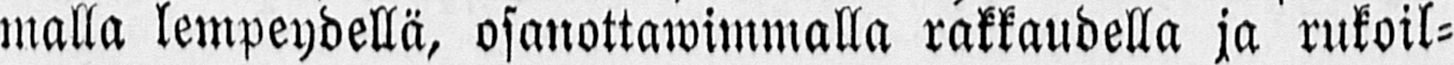malla lempeydellä, osanottawimmalla rakkaudella ja rukoil-
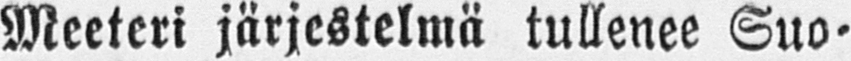Meeteri järjestelmä tullenee Suo-
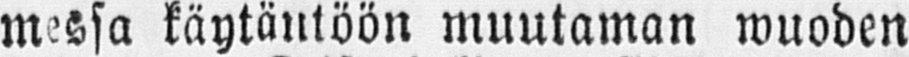messa käytäntöön muutaman wuoden
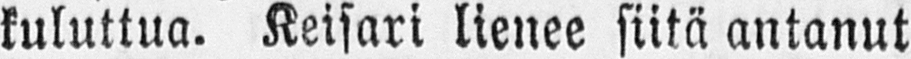kuluttua. Keisari lienee siitä antanut
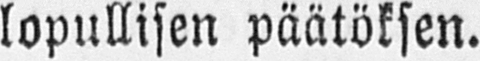lopullisen päätöksen.
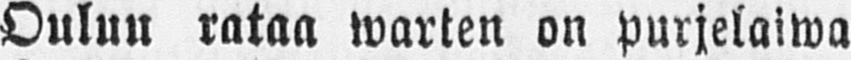Oulun rataa warten on purjelaiwa
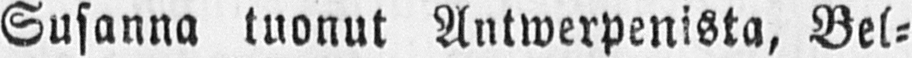Susanna tuonut Antwerpenista, Bel-
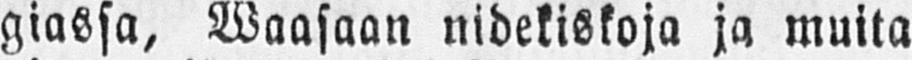giassa, Wassaan nidekiskoja ja muita
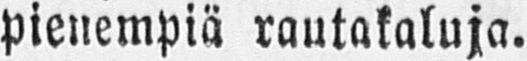pienempiä rautakaluja.
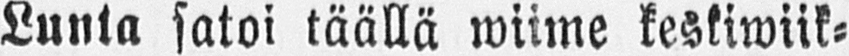Lunta satoi täällä winne keskiwiik-
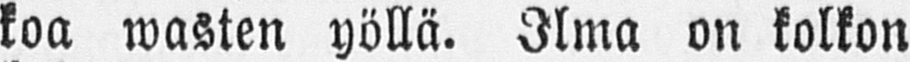koa wasten yöllä. Ilma on kolkon
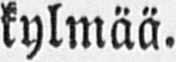kylmää.
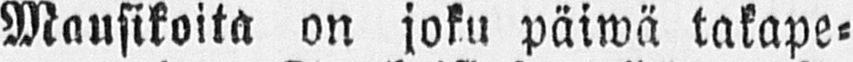Mausikoita on joku päiwä takape-
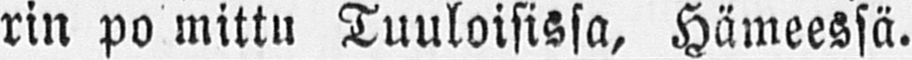rin po mittu Tuuloisissa, Hämeessä.
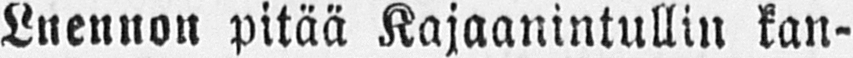Luennon pitää Kajaanintullin kan-
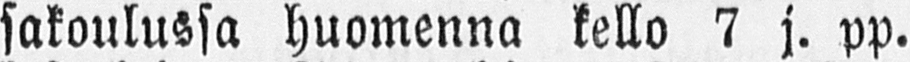sakoulussa huomenna kello 7 j. pp.
